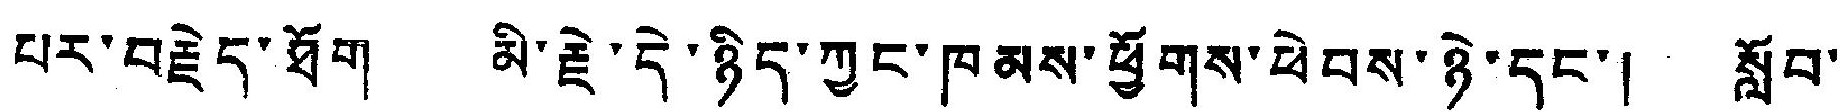པར་བརྗེད་ཐོག མི་རྗེ་དེ་ཉིད་ཀྱང་ཁམས་ཕྱོགས་ཕེབས་ཉེ་དང་། སློབ་
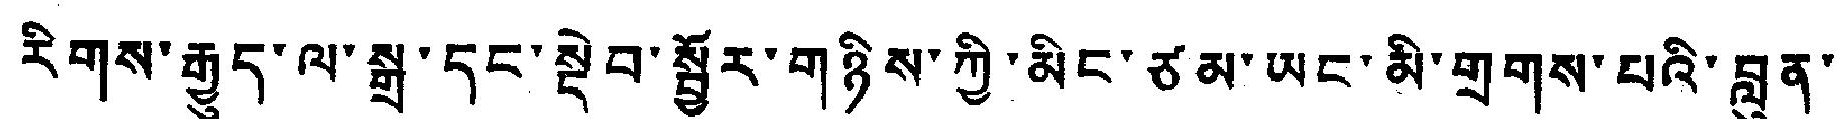རིགས་རྒྱུད་ལ་སྒྲ་དང་སྡེབ་སྦྱོར་གཉིས་ཀྱི་མིང་ཙམ་ཡང་མི་གྲགས་པའི་བླུན་
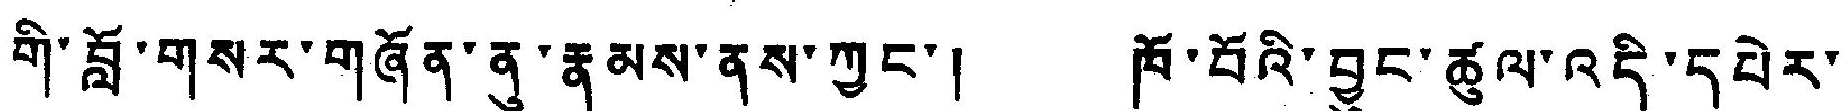གི་བློ་གསར་གཞོན་ནུ་རྣམས་ནས་ཀྱང་། ཁོ་བོའི་བྱུང་ཚུལ་འདི་དཔེར་
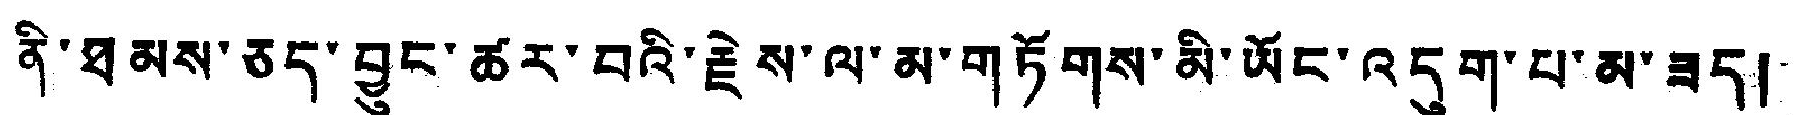ནི་ཐམས་ཅད་བྱུང་ཚར་བའི་རྗེས་ལ་མ་གཏོགས་མི་ཡོང་འདུག་པ་མ་ཟད།
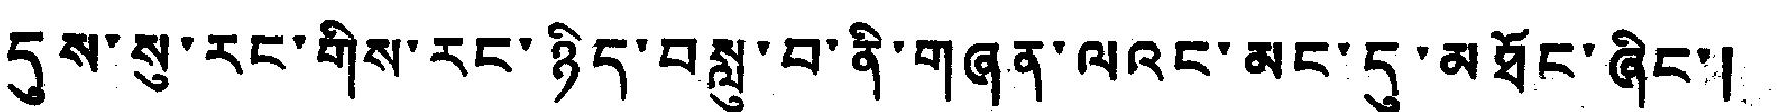དུས་སུ་རང་གིས་རང་ཉིད་བསླུ་བ་ནི་གཞན་ལའང་མང་དུ་མཐོང་ཞིང་།
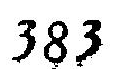383
